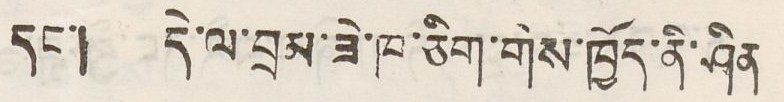དང་། དེ་ལ་བྲམ་ཟེ་ཁ་ཅིག་གིས་ཁྱོད་ནི་ཤིན
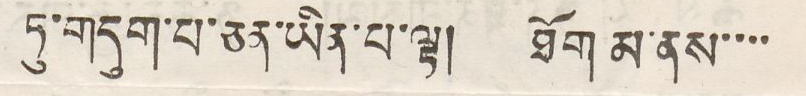ཏུ་གདུག་པ་ཅན་ཡིན་པ་ལྟ། ཐོག་མ་ནས་་་་
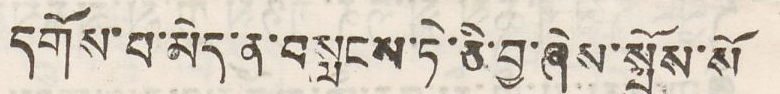དགོས་པ་མེད་ན་བསླངས་ཏེ་ཅི་བྱ་ཞེས་སྤྱོད་སོ
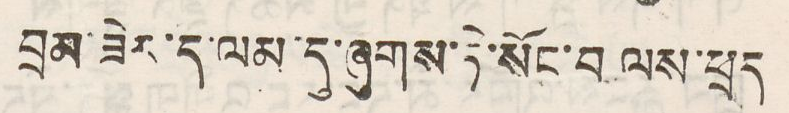བྲམ་ཟེར་ད་ལམ་དུ་ཞུགས་ཏེ་སོང་བ ལས་ཕྲད
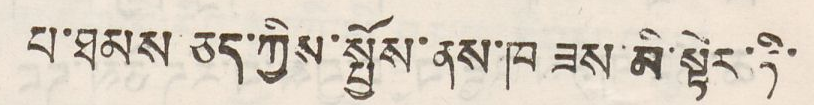པ་ཐམས ཅད་ཀྱིས་སྤྱོས་ནས་ཁ ཟས་མི་སྟེར་ཏི་
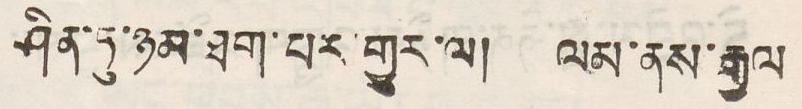ཤིན་ཏུ་ཉམ་ཐག་པར་གྱུར་ལ། ལམ་ནས་རྒྱལ
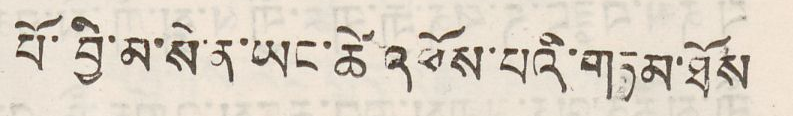པོ་བྱི་མ་སེ་ན་ཡང་ཚེ་འཕོས་པའི་གཏམ་ཐོས
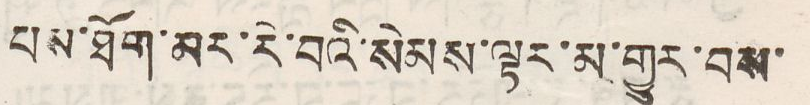པས་ཐོག་མར་རེ་བའི་སེམས་ལྟར་མ་གྱུར་བས་
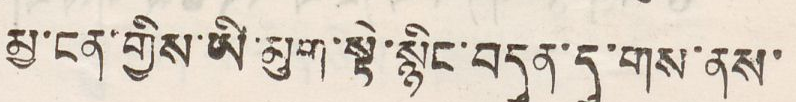མྱ་ངན་གྱིས་ཡི་མུག་སྟེ་སྙིང་བདུན་དུ་གས་ནས་
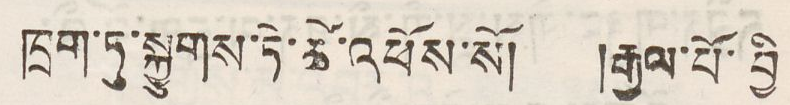ཁྲག་ཏུ་སྐྱུགས་ཏེ་ཚེ་འཕོས་སོ། །རྒྱལ་པོ་བྱི
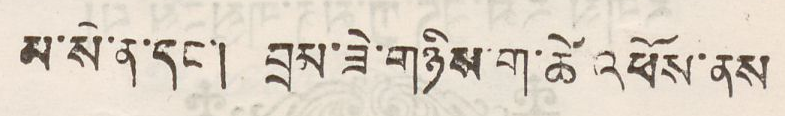མ་སེ་ན་དང་། བྲམ་ཟེ་གཉིས་ག་ཚེ་འཕོས་ནས
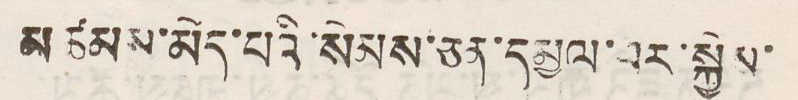མཚམས་མེད་པའི་སེམས་ཅན་དམྱལ་བར་སྐྱེས་
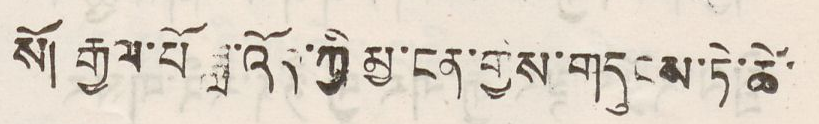སོ། རྒྱལ་པོ ཟླ་འོད་ཀྱི་མྱ་ངན་གྱིས་གདུངས་ཏེ་ཚེ་
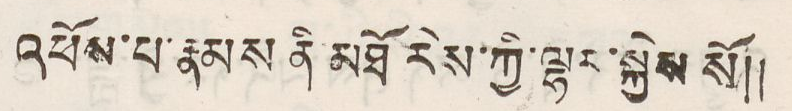འཕོས་པ་རྣམས ནི་མཐོ་རིས་ཀྱི་ལྷར་སྐྱེས སོ།།
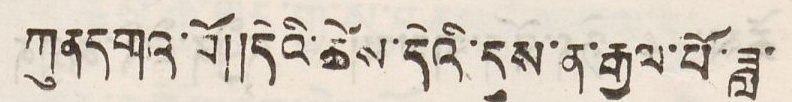ཀུནདགའ་བོ།།དེའི་ཚེས་དེའི་དུས་ན་རྒྱལ་པོ་ཟླ་
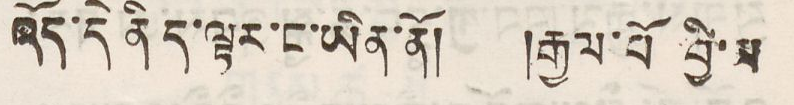འོད་དེ་ནི་ད་ལྟར་ང་ཡིན་ནོ། །རྒྱལ་པོ བྱི་མ
